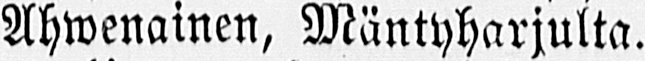Ahwenainen, Mäntyharjulta.
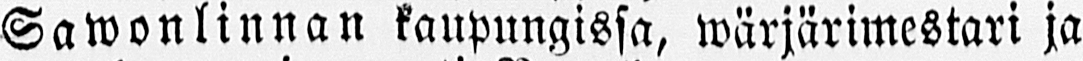Sawonlinnan kaupungissa, wärjärimestari ja
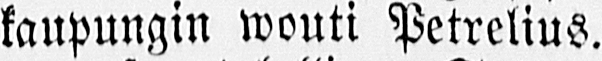kaupungin wouti Petrelius.
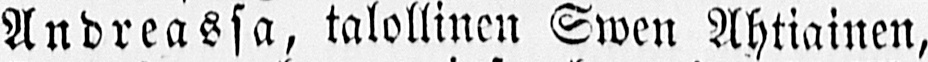Andreassa, talollinen Swen Ahtiainen,
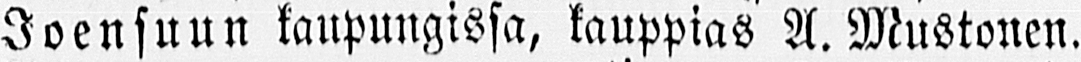Joensuun kaupungissa, kauppias A. Mustonen.
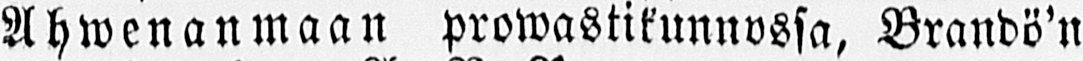Ahwenanmaan prowastikunnvssa, Brandö'n
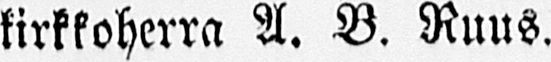kirkkoherra A. B. Ruus.
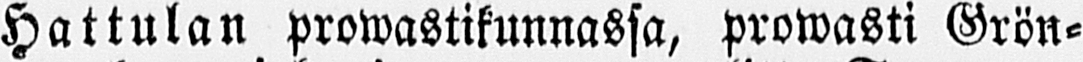Hattulan prowastikunnassa, promasti Grön-
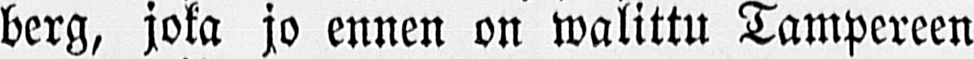berg, joka jo ennen on walittu Tampereen
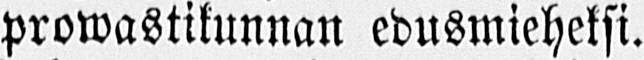prowastikunnan edusmieheksi.
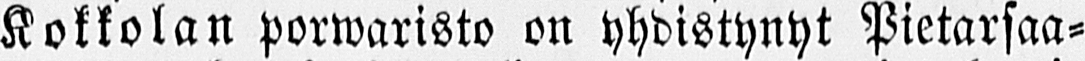Kokkolan porwaristo on yhdistynyt Pietarsaa-
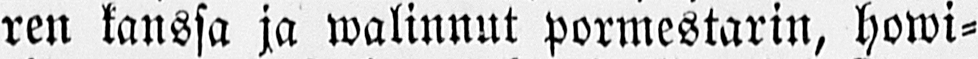ren kanssa ja walinnut pormestarin, howi-
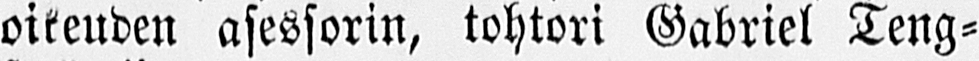oikeuden asessorin, tohtori Gabriel Teng-
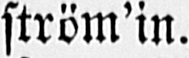ström'in.
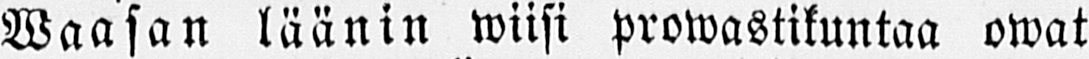Waasan läänin wiisi prowastikuntaa owat
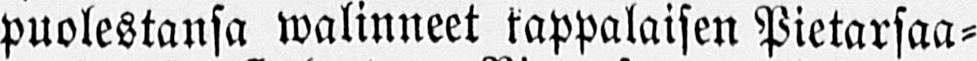puolestansa walinneet kappalaisen Pietarsaa-
